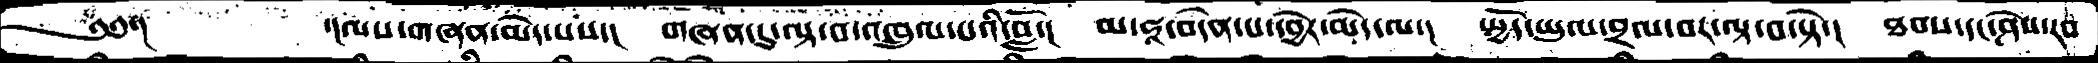༄༅་།       ་།ལས་གཞན་མེད་པས་།  གཞན་དུ་ལྟ་བ་འཁྲུལ་པའི་བློ་།  མ་ཧཱ་བདེན་པ་དབྱེར་མེད་ལ་།  སྤྱོད་ཡུལ་བྲལ་བར་ལྟ་བ་སྟེ་།  ཐབས་དང་ཤེས་རབ་
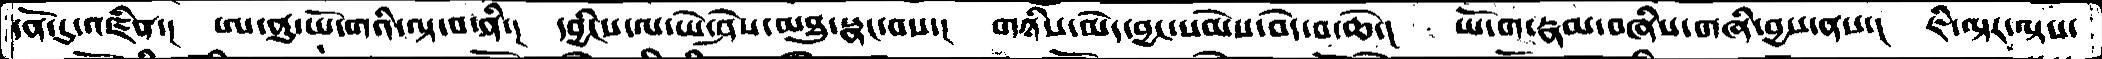དོན་དུ་འཛིན་།  ཨ་ནུ་ཡོ་གའི་ལྟ་བ་ནི་།  དབྱིངས་ལ་ཡེ་ཤེས་མཐུ་སྣང་བས་།  གཉིས་མེད་བྱང་སེམས་བདེ་བ་ཆེ་།  ཡོ་ག་རྣམ་བཞིས་གཞི་བྱས་ནས་།  ཇི་ལྟར་ལྟས་
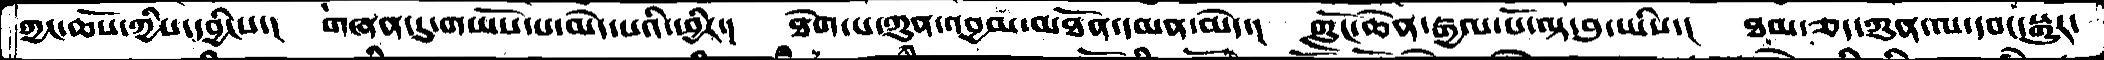ཀྱང་ཆོས་ཀྱིས་དབྱིངས་།  གཞན་དུ་གཡོས་པ་མེད་པའི་ཕྱིར་།  ཐེག་པ་ཀུན་འབྱམ་མཐོན་དམན་མེད་།  ཀློང་ཆེན་རྒྱལ་པོ་ལྟ་བུ་ཡིས་།  ཐམས་ཅད་ཀུན་ལ་དབང་སྒྱུར་
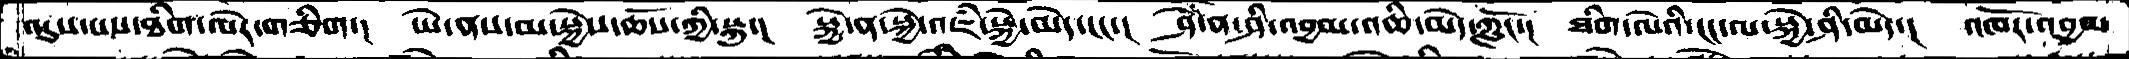འདུས་པས་ཐིག་ལེར་གཅིག་།  ཡེ་ནས་མ་སྐྱེས་ཆོས་ཀྱི་སྐུ་།  སྐྱེ་ན་སྐྱེ་འཇཾ་སྐྱེ་མེད་ངང་།  ཤེ་ན་ཤི་འབྱམ་འཆི་མེད་ཀློང་།  ཐིག་ལེའི་ངང་ལ་སྐྱེ་ཤི་མེད་།  འཁོར་འབྱམ
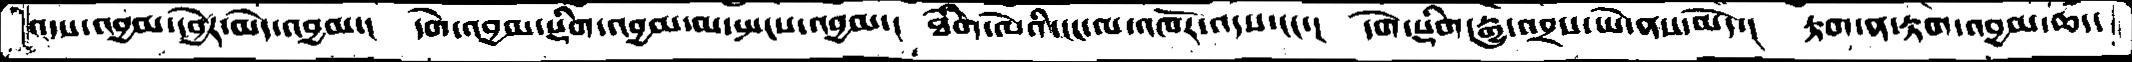འདས་འབྱམ་དབྱེར་མེད་འབྱམ་།  དགེ་འབྱམ་སྡིག་འབྱམ་མ་སྤངས་འབྱམ་།   ཐིག་ལེའི་ངང་ལ་འཁོར་འདས་ངང་།  དགེ་སྡིག་རྒྱུ་འབྲས་ཡེ་ནས་མེད་།  རྟག་ན་རྟག་འབྱམ་ཆད་
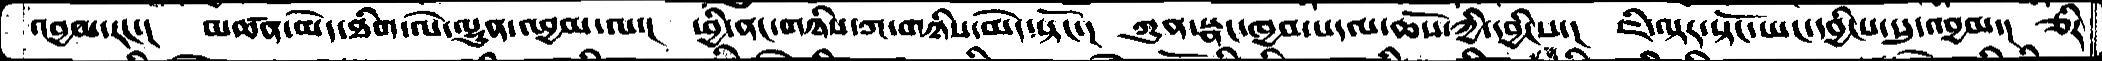འབྱམ་རང་།  མཚན་མེད་ཐིག་ལེ་ལྷུན་འབྱམ་ལ་།  ཕྱི་ནང་གཉིས་ཀ་གཉིས་མེད་སྟོང་།  ཀུན་སྣང་ཁྱབ་སདལ་ཆོས་ཀྱི་དབྱིངས་།  ཇི་ལྟར་སྟོང་ཡང་དབྱིངས་སུ་འབྱམ་།  ཅིར་
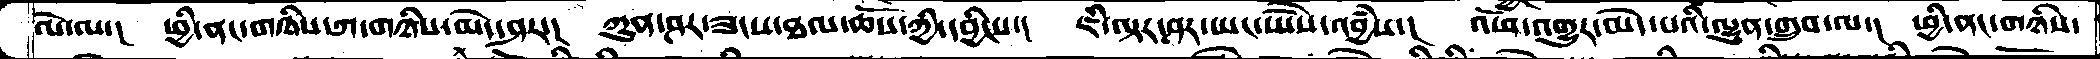ལ་ེལ་།  ཕྱི་ནང་གཉིས་ཀ་གཉིས་མེད་ཤར་།  ཀུན་ཤར་ཟངས་ཐལ་ཆོས་ཀྱི་དབྱིངས་།  ཇི་ལྟར་ཤར་ཡང་ཡཻས་འབྱཾས་།  འཕོ་འགྱུར་མེད་པའི་ལྷུན་གྲུབ་ལ་།  ཕྱི་ནང་གཉིས་
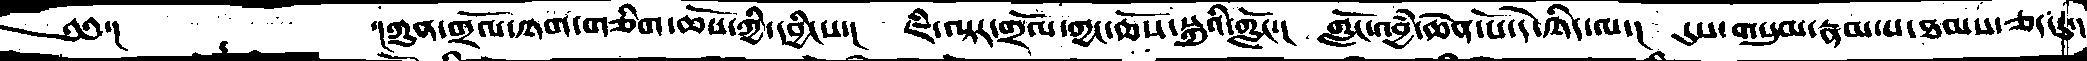༄༅་།        ་།ཀུན་གྲོལ་ཉག་གཅིག་ཆོས་ཀྱི་དབྱིངས་།  ཇི་ལྟར་གྲོལ་ཀྱང་ཆོས་སྐུའི་ཀློང་།  གློང་འབྱཾ་ཆེན་པོ་དེ་ཉིད་ལ་།  དུས་གསུམ་རྣམ་པ་ཐམས་ཅད་དུ་།
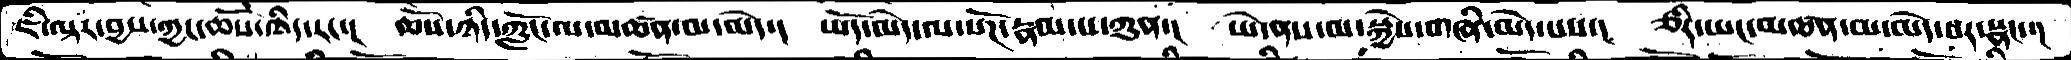ཇི་ལྟར་བྱས་ཀྱང་ཆོས་ཉིད་རང་།  ཆོས་ཉིད་ཀློང་ལ་མཚན་མ་མེད་།  ཡོད་མེད་ལ་སོཌ་རྣམ་པ་ཀུན་།  ཡེ་ནས་མ་སྐྱེས་གཞི་མེད་པས་།  ཅིར་ཡང་མཚན་མ་མེད་པར་སྣང་་།
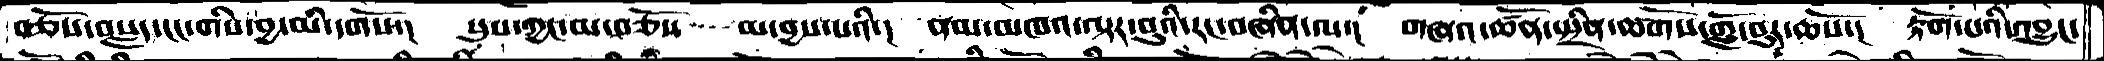བཅོས་བསླད་ངང་གིས་བྱ་མི་དགོས་།  སུས་ཀྱང་མ་བཅོས་   མ་བྱས་པའི་།  ནམ་མཁའ་ལྟར་བུའི་རང་བཞིན་ལ་།  གཞའ་ཚོན་སྤྲིན་ཚོགས་གློ་བུར་ཆོས་།  རྟོག་པའི་འབྱུང་
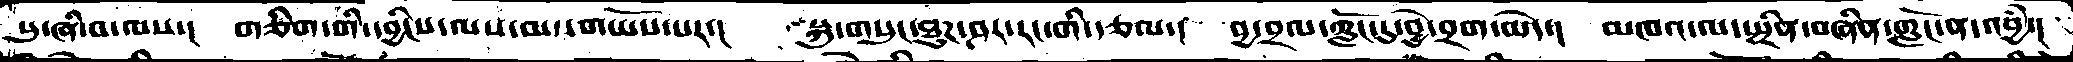སུ་ཞི་བ་ལས་།   གཅིག་གི་དབྱིངས་ལས་མ་གཡོས་པར་།  སྐུ་གསུང་ཐུཌ་ཤར་རང་གི་རྩལ་།  བྱ་བྲལ་ཀློང་དུ་བྱེ་བྲག་མེད་།  མཁའ་ལ་སྤྲིན་བཞིན་ཀློང་ན་འབྱཾ་།
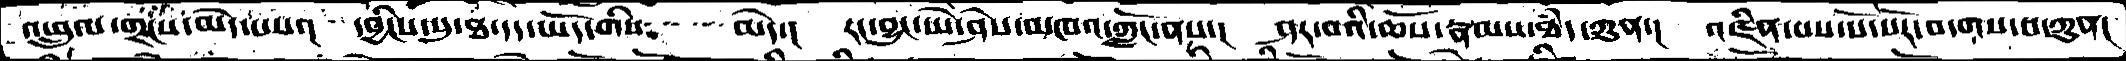འཕྲུལ་གྲངས་མེད་པས་།  དབྱིངས་སུ་ཐ་དད་ཡོད་གིས་   མེད་།   རང་བྱུང་ཡེ་ཤེས་མཁའ་ཀློང་ནས་།  ཤར་བའི་ཆོས་རྣམས་ཐཾད་ཀུན་།   འཛིན་པས་སོ་སོར་བདགས་པ་ཀུན།
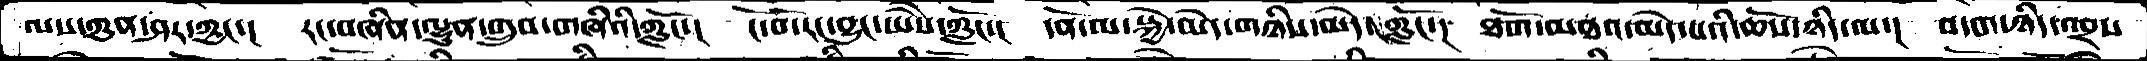ལས་ཀུན་ཤར་ཀྱང་།  རང་བཞིན་ལྷུན་གྲུབ་གཞིའི་ཀློང་།  ངོ་བོ་རང་བྱུང་ཡཻས་ཀློང་།   དོན་ལ་སྐྱེ་མེད་གཉིས་མེད་ཀློང་།  ཐོག་མཐའ་མེད་པའི་ཆོས་ཉིད་ལ་།  བདག་ཉིད་འབྲས
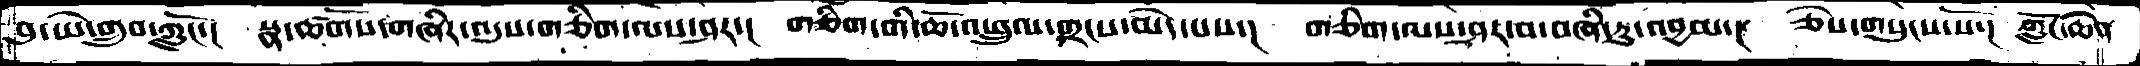བུ་ཡེ་གྲུབ་ཀློང་།  སྣ་ཚོགས་གཞིར་འདུས་གཅིག་ལས་ཤར་།   གཅིག་གི་ཆོ་འཕྲུལ་གྲངས་མེད་པས་།  གཅིག་ལས་ཤར་བ་བཞི་རུ་འབྱམ་།  ཅེས་གསུངས་སོ་།  ཀློང་ཆེན
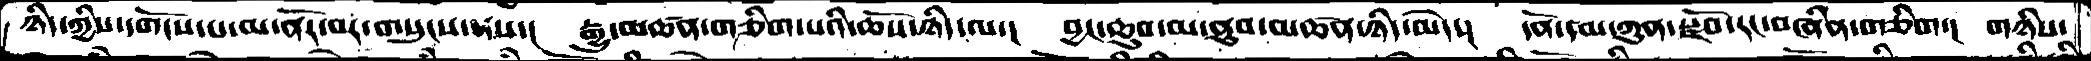ཉིད་ཀྱི་དགོངས་པ་མ་ནོར་བར་གསུངས་ནས་།    རྒྱུ་མཚན་གཅིག་པའི་ཆོས་ཉིད་ལ་།  བྱང་ཆུབ་མ་ནུབ་མཚན་ཉིད་མེད་།  དོན་དམ་ཀུན་སྫོབ་རང་བཞིན་གཅིག་།  གཉིས་
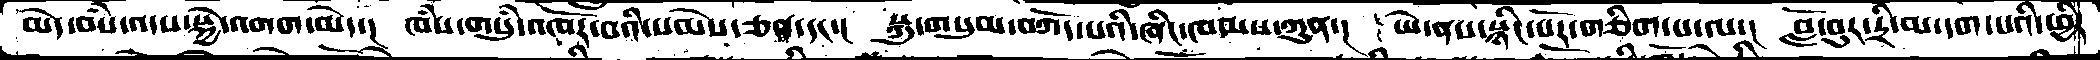མེད་བསཾ་འདས་སྐྱེ་འགག་མེད་།  ཁཾས་གསུཾ་འཁོར་བའི་སེམས་ཅན་དང་།  སྐུ་གསུམ་བཀོད་པའི་ཞིང་ཁམས་ཀུན་།  ཡེ་ནས་སྙིང་པོར་གཅིག་པ་ལ་།  བློ་བུར་དྲི་མ་དག་པའི་ཕྱིར
